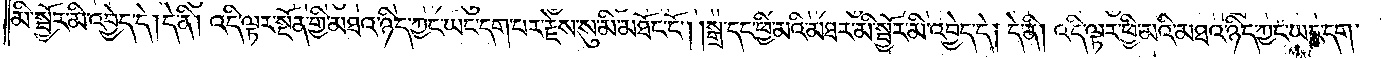མི་སྦྱོར་མི་འབྱེད་དེ། དེ་ནི། འདི་ལྟར་སྔོན་གྱི་མཐའ་ཉིད་ཀྱང་ཡང་དག་པར་རྗེས་སུ་མི་མཐོང་ངོ༌། །སྒྲ་དང་ཕྱི་མའི་མཐར་མི་སྦྱོར་མི་འབྱེད་དེ། དེ་ནི། འདི་ལྟར་ཕྱི་མའི་མཐའ་ཉིད་ཀྱང་ཡང་དག་
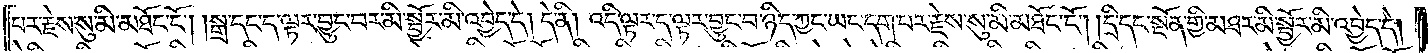པར་རྗེས་སུ་མི་མཐོང་ངོ༌། །སྒྲ་དང་ད་ལྟར་བྱུང་བར་མི་སྦྱོར་མི་འབྱེད་དེ། དེ་ནི། འདི་ལྟར་ད་ལྟར་བྱུང་བ་ཉིད་ཀྱང་ཡང་དག་པར་རྗེས་སུ་མི་མཐོང་ངོ༌། །དྲི་དང་སྔོན་གྱི་མཐར་མི་སྦྱོར་མི་འབྱེད་དེ།
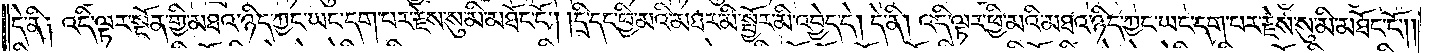དེ་ནི༑ འདི་ལྟར་སྔོན་གྱི་མཐའ་ཉིད་ཀྱང་ཡང་དག་པར་རྗེས་སུ་མི་མཐོང་ངོ༌། །དྲི་དང་ཕྱི་མའི་མཐར་མི་སྦྱོར་མི་འབྱེད་དེ། དེ་ནི། འདི་ལྟར་ཕྱི་མའི་མཐའ་ཉིད་ཀྱང་ཡང་དག་པར་རྗེས་སུ་མི་མཐོང་ངོ༌།
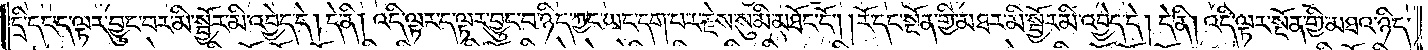དྲི་དང་ད་ལྟར་བྱུང་བར་མི་སྦྱོར་མི་འབྱེད་དེ། དེ་ནི། འདི་ལྟར་ད་ལྟར་བྱུང་བ་ཉིད་ཀྱང་ཡང་དག་པར་རྗེས་སུ་མི་མཐོང་ངོ༌། །རོ་དང་སྔོན་གྱི་མཐར་མི་སྦྱོར་མི་འབྱེད་དེ། དེ་ནི། འདི་ལྟར་སྔོན་གྱི་མཐའ་ཉིད་
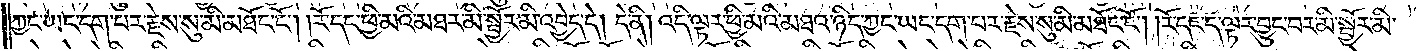ཀྱང་ཡང་དག་པར་རྗེས་སུ་མི་མཐོང་ངོ༌། །རོ་དང་ཕྱི་མའི་མཐར་མི་སྦྱོར་མི་འབྱེད་དེ། དེ་ནི། འདི་ལྟར་ཕྱི་མའི་མཐའ་ཉིད་ཀྱང་ཡང་དག་པར་རྗེས་སུ་མི་མཐོང་ངོ༌། །རོ་དང་ད་ལྟར་བྱུང་བར་མི་སྦྱོར་མི་
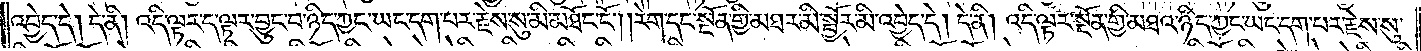འབྱེད་དེ། དེ་ནི། འདི་ལྟར་ད་ལྟར་བྱུང་བ་ཉིད་ཀྱང་ཡང་དག་པར་རྗེས་སུ་མི་མཐོང་ངོ༌། །རེག་དང་སྔོན་གྱི་མཐར་མི་སྦྱོར་མི་འབྱེད་དེ། དེ་ནི། འདི་ལྟར་སྔོན་གྱི་མཐའ་ཉིད་ཀྱང་ཡང་དག་པར་རྗེས་སུ་
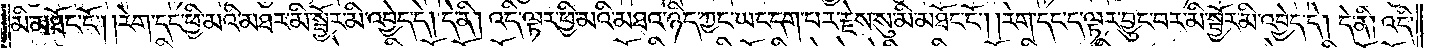མི་མཐོང་ངོ༌། །རེག་དང་ཕྱི་མའི་མཐར་མི་སྦྱོར་མི་འབྱེད་དེ། དེ་ནི། འདི་ལྟར་ཕྱི་མའི་མཐའ་ཉིད་ཀྱང་ཡང་དག་པར་རྗེས་སུ་མི་མཐོང་ངོ༌། །རེག་དང་ད་ལྟར་བྱུང་བར་མི་སྦྱོར་མི་འབྱེད་དེ། དེ་ནི། འདི་
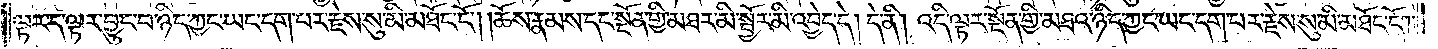ལྟར་ད་ལྟར་བྱུང་བ་ཉིད་ཀྱང་ཡང་དག་པར་རྗེས་སུ་མི་མཐོང་ངོ༌། །ཆོས་རྣམས་དང་སྔོན་གྱི་མཐར་མི་སྦྱོར་མི་འབྱེད་དེ། དེ་ནི། འདི་ལྟར་སྔོན་གྱི་མཐའ་ཉིད་ཀྱང་ཡང་དག་པར་རྗེས་སུ་མི་མཐོང་ངོ༌།
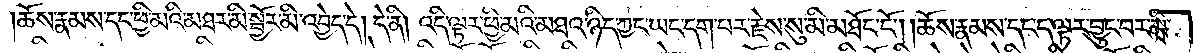ཆོས་རྣམས་དང་ཕྱི་མའི་མཐར་མི་སྦྱོར་མི་འབྱེད་དེ། དེ་ནི། འདི་ལྟར་ཕྱི་མའི་མཐའ་ཉིད་ཀྱང་ཡང་དག་པར་རྗེས་སུ་མི་མཐོང་ངོ༌། །ཆོས་རྣམས་དང་ད་ལྟར་བྱུང་བར་མི་
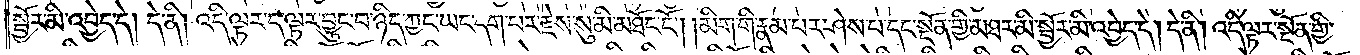སྦྱོར་མི་འབྱེད་དེ། དེ་ནི། འདི་ལྟར་ད་ལྟར་བྱུང་བ་ཉིད་ཀྱང་ཡང་དག་པར་རྗེས་སུ་མི་མཐོང་ངོ༌། །མིག་གི་རྣམ་པར་ཤེས་པ་དང་སྔོན་གྱི་མཐར་མི་སྦྱོར་མི་འབྱེད་དེ། དེ་ནི། འདི་ལྟར་སྔོན་གྱི་
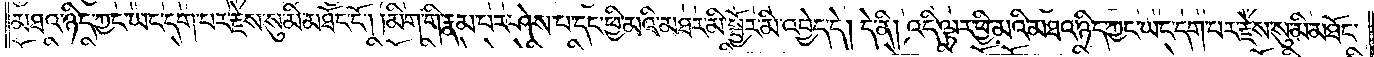མཐའ་ཉིད་ཀྱང་ཡང་དག་པར་རྗེས་སུ་མི་མཐོང་ངོ༌། །མིག་གི་རྣམ་པར་ཤེས་པ་དང་ཕྱི་མའི་མཐར་མི་སྦྱོར་མི་འབྱེད་དེ། དེ་ནི། འདི་ལྟར་ཕྱི་མའི་མཐའ་ཉིད་ཀྱང་ཡང་དག་པར་རྗེས་སུ་མི་མཐོང་
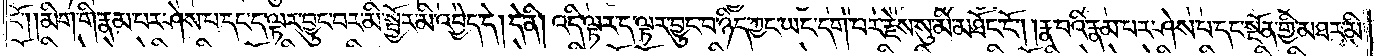ངོ༌། །མིག་གི་རྣམ་པར་ཤེས་པ་དང་ད་ལྟར་བྱུང་བར་མི་སྦྱོར་མི་འབྱེད་དེ། དེ་ནི། འདི་ལྟར་ད་ལྟར་བྱུང་བ་ཉིད་ཀྱང་ཡང་དག་པར་རྗེས་སུ་མི་མཐོང་ངོ༌། །རྣ་བའི་རྣམ་པར་ཤེས་པ་དང་སྔོན་གྱི་མཐར་མི་
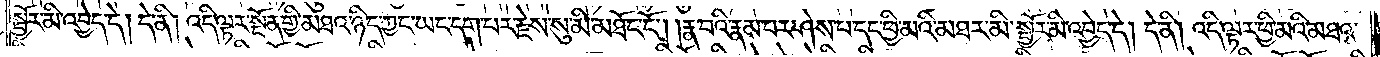སྦྱོར་མི་འབྱེད་དེ། དེ་ནི། འདི་ལྟར་སྔོན་གྱི་མཐའ་ཉིད་ཀྱང་ཡང་དག་པར་རྗེས་སུ་མི་མཐོང་ངོ༌། །རྣ་བའི་རྣམ་པར་ཤེས་པ་དང་ཕྱི་མའི་མཐར་མི་སྦྱོར་མི་འབྱེད་དེ། དེ་ནི། འདི་ལྟར་ཕྱི་མའི་མཐའ་
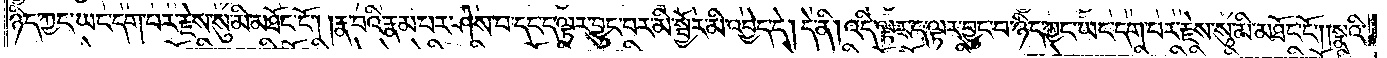ཉིད་ཀྱང་ཡང་དག་པར་རྗེས་སུ་མི་མཐོང་ངོ༌། །རྣ་བའི་རྣམ་པར་ཤེས་པ་དང་ད་ལྟར་བྱུང་བར་མི་སྦྱོར་མི་འབྱེད་དེ། དེ་ནི། འདི་ལྟར་ད་ལྟར་བྱུང་བ་ཉིད་ཀྱང་ཡང་དག་པར་རྗེས་སུ་མི་མཐོང་ངོ༌། །སྣའི་
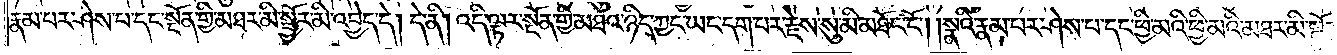རྣམ་པར་ཤེས་པ་དང་སྔོན་གྱི་མཐར་མི་སྦྱོར་མི་འབྱེད་དེ། དེ་ནི། འདི་ལྟར་སྔོན་གྱི་མཐའ་ཉིད་ཀྱང་ཡང་དག་པར་རྗེས་སུ་མི་མཐོང་ངོ༌། །སྣའི་རྣམ་པར་ཤེས་པ་དང་ཕྱི་མའི་ཕྱི་མའི་མཐར་མི་སྦྱོར་
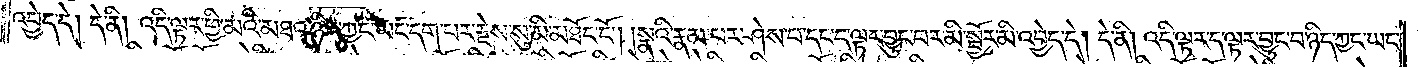མི་འབྱེད་དེ། དེ་ནི། འདི་ལྟར་ཕྱི་མའི་མཐའ་ཉིད་ཀྱང་ཡང་དག་པར་རྗེས་སུ་མི་མཐོང་ངོ༌། །སྣའི་རྣམ་པར་ཤེས་པ་དང་ད་ལྟར་བྱུང་བར་མི་སྦྱོར་མི་འབྱེད་དེ། དེ་ནི། འདི་ལྟར་ད་ལྟར་བྱུང་བ་ཉིད་ཀྱང་ཡང་
